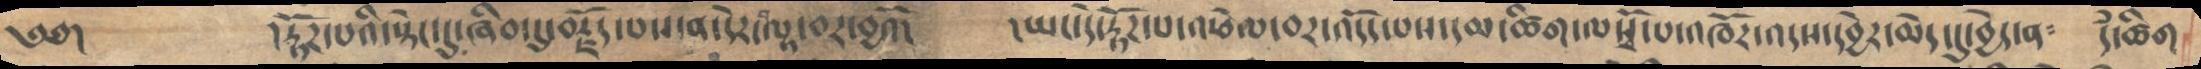༄༅།      །རྟོཌ་པའི་སྟེང་དུ་ཞིབ་དུ་བརྗོད་པས་ན་དེར་བལྟ་བར་བྱའོ།   །ཡང་དེ་རྟོཌ་པ་འཕེལ་བར་འདོད་པས་དམ་ཚིག་ལསྭོ་པ་འཁོར་འདས་དབྱེར་མེད་དུ་བྱེད་ན༴  དཾ་ཚིག
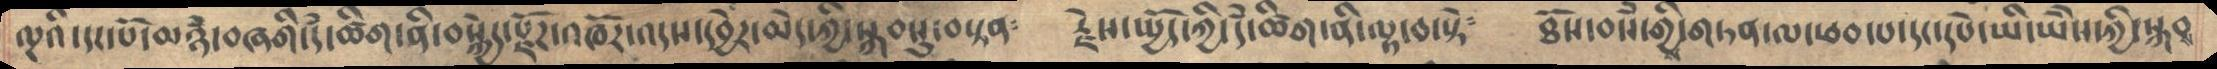ལྔའི་དང་པོ་མཉཾ་བཞགི་དཾ་ཚིག་ནི་བསྐྱེད་རྫོཌ་འཁོར་འདས་དབྱེར་མེད་ཀྱི་སྐབསུ་བསྟན༴   རྗེས་སྤྱོད་ཀྱི་དཾ་ཚིག་ནི་ལྟ་བ་སྟེ༴   ཐོས་བསཾ་གྱིས་གཏན་ལ་ཕབ་པ་དང་དཔེ་ཡི་ཡཻས་ཀྱི་སྐབས
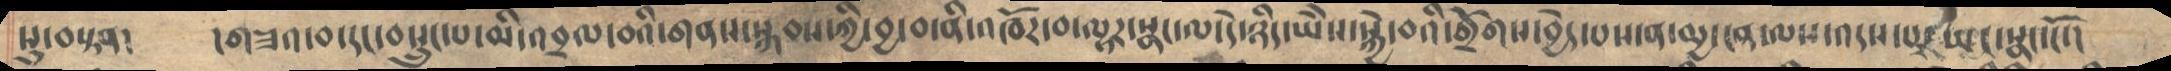སུ་བསྟན།      །གཟའ་བ་དང་བསྲུང་པ་མི་འབྲལ་བའི་གནས་སྐབས་ཀྱི་བྱ་བ་ནི་འཁོར་བ་ལྟར་སྣང་ལ་དེ་ཉིད་ཡཻས་སྐྱེ་བའི་གྲོགས་བྱེད་པས་ན་མྱ་ངན་ལས་འདས་པར་ཡང་སྣང་ངོ་།
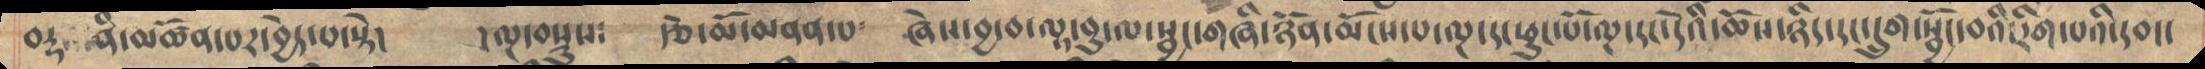བརྡ་ནི་མཚོན་པར་བྱེད་པ་སྟེ།       །ལྔ་བསྡུས༴   རྩེ་མོ་མནན་པ༴    ཞེས་བྱ་བ་ལྟ་བུ་ལ་སྦྱང་གཞི་ཉོན་མོངས་པ་ལྔ་དང་ཕུང་པོ་ལྔ་དང་དེའི་ཆོས་ཉིད་དང་དྲུག་སྦྱོང་བའི་རིག་པའི་དབང་
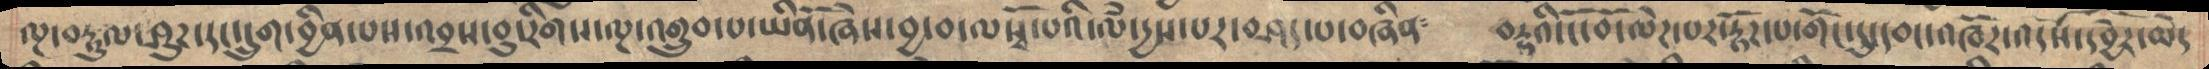ལྔ་བརྟུལ་ཤུཌ་དང་དྲུག་བྱིན་པས་འབྲས་བུ་རིགས་ལྔ་འགྲུབ་པ་ཡིནོ་ཞེས་བྱ་བ་ལསྭོ་པའི་ལཾ་དྱས་པར་བཤད་པ་བཞིན༴   བརྡའི་ངོ་བོ་ལེཌ་པར་རྟོཌ་པ་གོང་དུ་དབང་འཁོར་འདས་དབྱེར་མེད
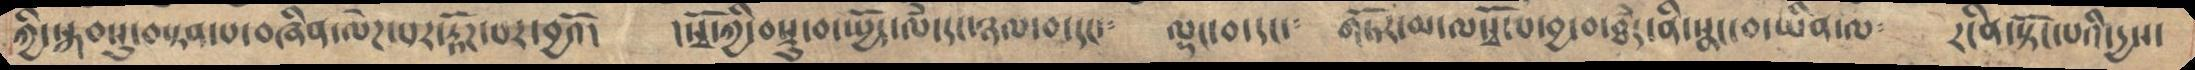ཀྱི་སྐབསུ་བསྟན་པ་བཞིན་ལེཌ་པར་རྟོཌ་པར་བྱའོ།    །སྭོ་ཀྱི་བསྡུ་བ་སྤྱོད་ལཾ་དང་ཉལ་བ་དང་༴      ལྡང་བ་དང་༴    གཏོར་མ་ལསྭོ་པ་བྱ་བ་ཐཾད་ནི་སྣང་བ་ཡིན་ལ༴     རངིན་སྟོང་པའི་དྱས་
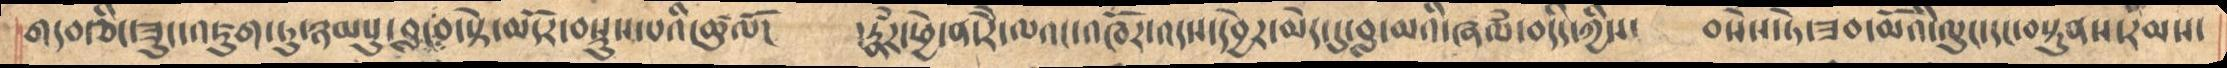གདབ་ཅིང་ཟུང་འཇུག་ཏུ་ཉམསུ་བླངས་སྟེ་མདོར་བསྡུས་པའི་ཚུལོ།     །རྣཾར་ཕྱེ་ན་རཻ་ལའང་འཁོར་འདས་དབྱེར་མེད་དུ་བླ་མའི་ཞལཾ་བདིད་ཀྱིས་        བསེས་ཏེ་ཟབ་མོའི་ལུང་དང་བསྟུནས་རིམས་
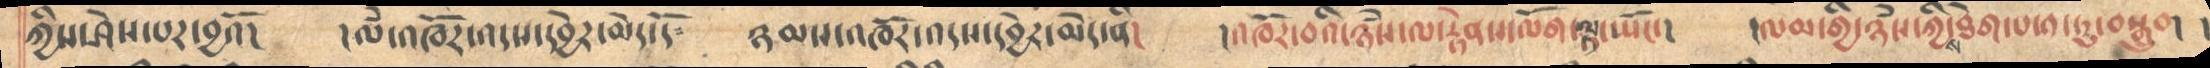ཀྱིས་ཤེས་པར་བྱའོ།   །ལཾ་འཁོར་འདས་དབྱེར་མེད་དོ༴  ཉམས་འཁོར་འདས་དབྱེར་མེད་ནི།   །འཁོར་བའི་ཉཾས་ལ་རྟེནས་ལོག་ལྟ་སྤོང་།  །ལམ་གྱི་ཉཾས་ཀྱིས་ཐེག་པ་༡་ཏུ་བསྒྲུབ།  །
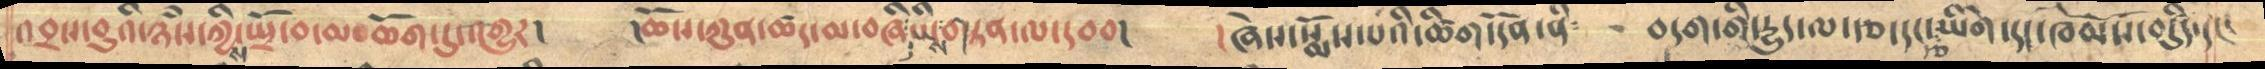འབྲས་བུའི་ཉཾས་ཀྱིས་སྤྲོ་བ་མཆོག་དུ་འགྱུར།  །ཆོས་ཀུན་ཚད་མ་བཞི་ཡིས་གཏན་ལ་དབབ།  །ཞེས་སྨོན་པའི་ཚིག་དོན་ནི༴   བདག་གི་དྱུད་ལ་རྩ་དང་རྩ་ཡིགེ་དང་ཁམསབདུརྩི་དང་
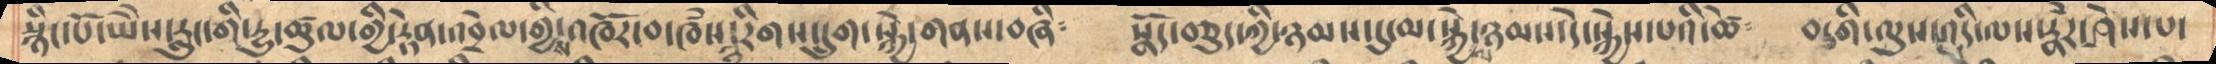སྙིང་པོ་ཡཻས་རླུང་གི་དྱུ་ཚུལ་གྱི་རྟེན་འབྲེལ་གྱིས་འཁོར་བ་ཁཾས་༣་རིགས་དྲུག་སྐྱེ་གནས་བཞི༴ སྣོད་བཅུད་ཀྱི་ཉམས་དུ་མ་སྐྱེས་ཉམས་དེ་སྐྱེས་པའི་ཚེ༴  བདགི་ལུས་འདི་ལས་རྣཾར་ཤེས་པ་
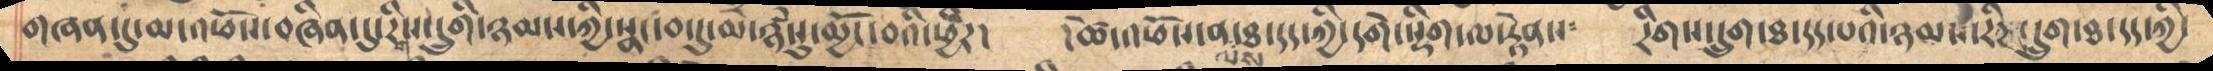གཞན་དུ་མ་འཕོས་བཞིན་དུ་རིགས་དྲུགི་ཉམས་ཀྱི་སྣང་བ་དུ་མ་ཉཾསུ་མྱོང་བའི་ཕྱིར།  །ཚེ་འཕོས་ན་ལས་ཐ་དད་ཀྱི་དགེ་སྡིག་ལ་རྟེནས༴  རིགས་དྲུག་ཐ་དད་པའི་ཉམས་རིག་དྲུག་ཐ་དད་ཀྱི་
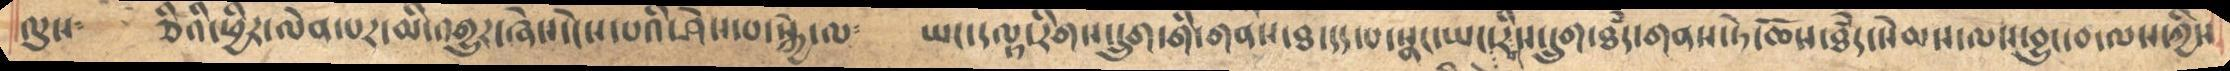ལུས༴  ཅིའི་ཕྱིར་ལེན་པར་མི་འགྱུར་ཞེས་ངེས་པའི་ཤེས་པ་སྐྱེ་ལ༴  ཡང་དལྟ་རིགས་དྲུག་གི་གནས་ཐ་དད་པ་སྣང་ཡང་རིགས་དྲུག་ཐཾད་གནས་ཏེ་ཆོས་ཐཾད་སེམས་ལས་བྱུང་བ་ལས་ཀྱིས་
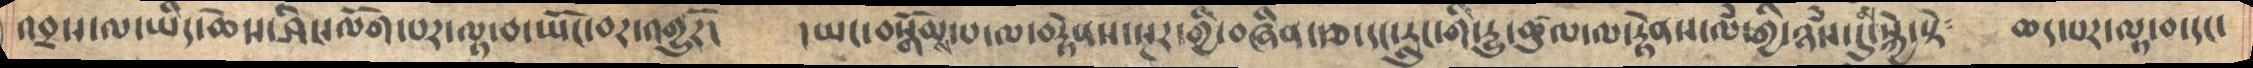འབྲས་ལ་ཡིད་ཆེས་ཤིང་ལོག་པར་ལྟ་བ་ཡོང་བར་འགྱུརོ།    །ཡང་བསྒོམས་པ་ལ་བརྟེནས་སྔར་གྱི་བཞིན་རྩ་དང་རླུང་གི་དྱུ་ཚུལ་ལ་རྟེནས་ལཾ་གྱི་ཉཾས་དུ་མ་སྐྱེ་སྟེ་   ཆད་པར་ལྟ་བ་དང་
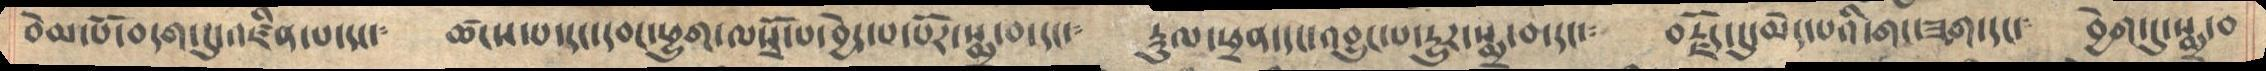བེམ་པོ་བདག་དུ་འཛིན་པ་དང་༴       ཚངས་པ་དང་དབང་ཕྱུག་ལསྭོ་པ་བྱེད་པ་པོར་སྨྲ་བ་དང་༴     རྡུལ་ཕྲན་དང་འབྱུང་པ་དྱུར་སྨྲ་བ་དང་༴    བརྗོད་དུ་མེད་པའི་གང་ཟག་དང་༴    བྱེག་དུ་སྨྲ་བ
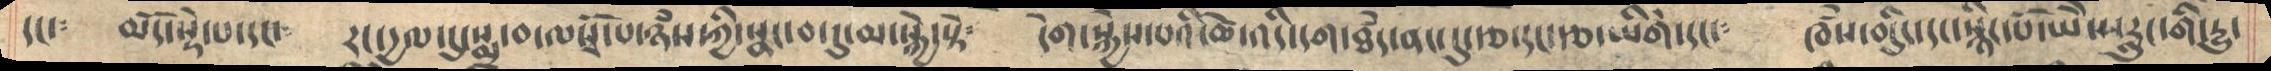དང་༴   མདོ་སྡེ་པ་དང་༴      རང་དྱལ་དུ་སྨྲ་བ་ལསྭོ་པ་ཉཾས་ཀྱི་སྣང་བ་དུ་མ་སྐྱེ་སྟེ༴   དེག་སྐྱེས་པའི་ཚེ་འདི་དག་ཐཾད་ནང་དུ་རྩ་དང་རྩ་ཡིེག་དང་༴    ཁཾས་བདིུད་དང་སྙིང་པོ་ཡཻས་རླུང་གི་དྱུ་
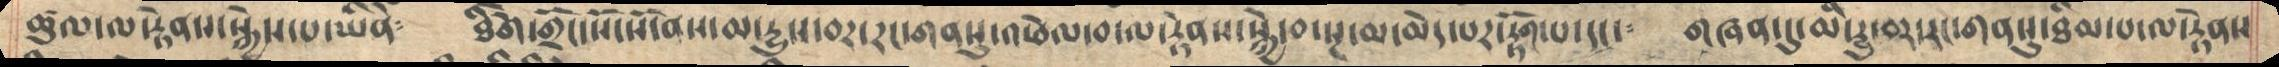ཚུལ་ལ་རྟེནས་སྐྱེས་པ་ཡིནེ༴     ཐིགེ་གྲོང་སོ་སོ་ནས་མ་དྱུས་བར་རང་གནསུ་འཕེལ་བ་ལ་རྟེནས་སྐྱེ་བ་སྔ་མ་མེད་པར་རྟོག་པ་དང་༴     གཞན་དུ་མི་དྱུ་བར་རང་གནསུ་ཐིམ་པ་ལ་རྟེནས
